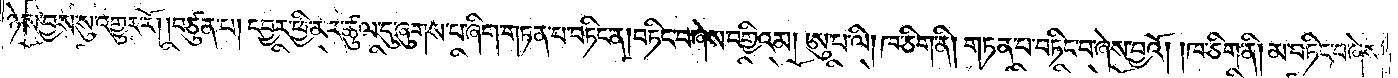ཉེས་བྱས་སུ་འགྱུར་རོ། །བཙུན་པ། དབྱར་ཕྱི་མར་ཚུལ་དུ་ཞུགས་པ་ཞིག་གཏན་པ་བཏིང་ན། བཏིང་བ་ཞེས་བགྱིའམ། ཨུ་པ་ལི། ཁ་ཅིག་ནི། གཏན་པ་བཏིང་བ་ཞེས་བྱའོ། །ཁ་ཅིག་ནི། མ་བཏིང་བ་ཞེས་
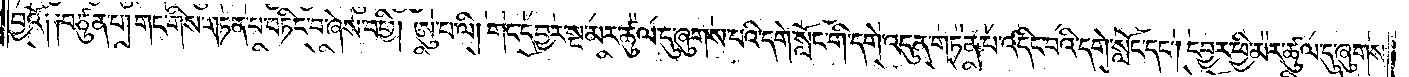བྱའོ༑ ༑བཙུན་པ། གང་གིས་གཏན་པ་བཏིང་བ་ཞེས་བགྱི། ཨུ་པ་ལི། གང་དབྱར་སྔ་མར་ཚུལ་དུ་ཞུགས་པའི་དགེ་སློང་གི་དགེ་འདུན་གཏན་པ་འདིང་བའི་དགེ་སློང་དང༌། དབྱར་ཕྱི་མར་ཚུལ་དུ་ཞུགས་
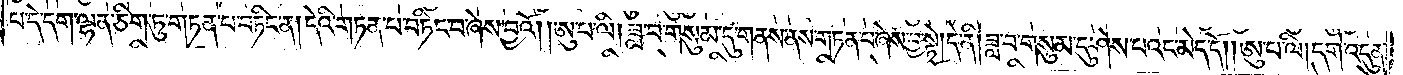པ་དེ་དག་ལྷན་ཅིག་ཏུ་གཏན་པ་བཏིང་ན། དེའི་གཏན་པ་བཏིང་བ་ཞེས་བྱའོ། །ཨུ་པ་ལི། ཟླ་བ་གསུམ་དུ་གནས་ནས་གཏན་པ་ཞེས་བྱ་སྟེ། དེ་ནི། ཟླ་བ་གསུམ་དུ་ཤེས་པའང་མེད་དོ། །ཨུ་པ་ལི། དགེ་འདུན་
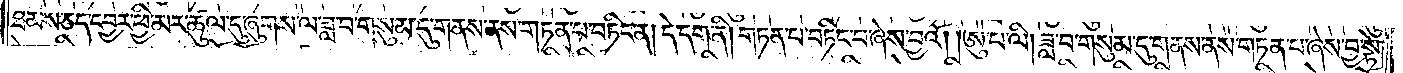ཐམས་ཅད་དབྱར་ཕྱི་མར་ཚུལ་དུ་ཞུགས་ལ་ཟླ་བ་གསུམ་དུ་གནས་ནས་གཏན་པ་བཏིང་ན། དེ་དག་ནི། གཏན་པ་བཏིང་བ་ཞེས་བྱའོ། །ཨུ་པ་ལི། ཟླ་བ་གསུམ་དུ་གནས་ནས་གཏན་པ་ཞེས་བྱ་སྟེ།
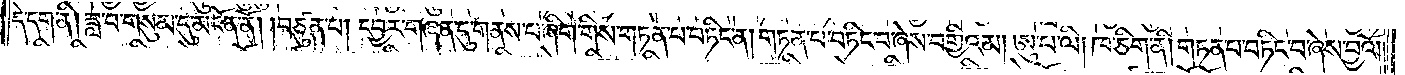དེ་དག་ནི། ཟླ་བ་གསུམ་དུ་མངོན་ནོ། །བཙུན་པ། དབྱར་གཞན་དུ་གནས་པ་ཞིག་གིས་གཏན་པ་བཏིང་ན། གཏན་པ་བཏིང་བ་ཞེས་བགྱིའམ། ཨུ་པ་ལི། ཁ་ཅིག་ནི། གཏན་པ་བཏིང་བ་ཞེས་བྱའོ༎
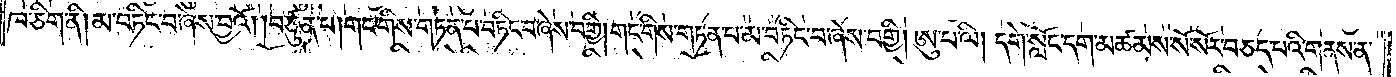ཁ་ཅིག་ནི། མ་བཏིང་བ་ཞེས་བྱའོ། །བཙུན་པ། གང་གིས་གཏན་པ་བཏིང་བ་ཞེས་བགྱི། གང་གིས་གཏན་པ་མ་བཏིང་བ་ཞེས་བགྱི། ཨུ་པ་ལི། དགེ་སློང་དག་མཚམས་སོ་སོར་བཅད་པའི་གནས་ན་
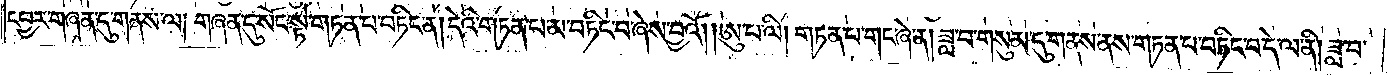དབྱར་གཞན་དུ་གནས་ལ། གཞན་དུ་སོང་སྟེ་གཏན་པ་བཏིང་ན། དེའི་གཏན་པ་མ་བཏིང་བ་ཞེས་བྱའོ། །ཨུ་པ་ལི། གཏན་པ་གང་ཞེ་ན། ཟླ་བ་གསུམ་དུ་གནས་ནས་གཏན་པ་བཏིང་བ་དེ་ལ་ནི། ཟླ་བ་
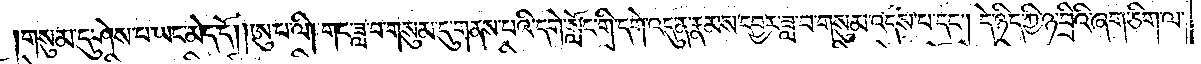གསུམ་དུ་ཤེས་པ་ཡང་མེད་དོ། །ཨུ་པ་ལི། གང་ཟླ་བ་གསུམ་དུ་གནས་པའི་དགེ་སློང་གི་དགེ་འདུན་རྣམས་དབྱར་ཟླ་བ་གསུམ་འདས་པ་དང༌། དེ་ཉིད་ཀྱི་ཉ་བྲིའི་ཞག་ཅིག་ལ་
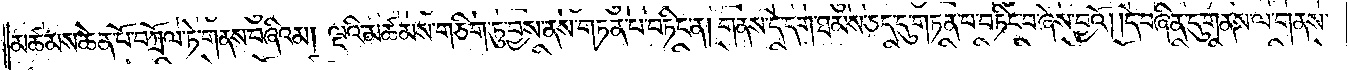མཚམས་ཆེན་པོ་བཀྲོལ་ཏེ་གནས་བཞིའམ། ལྔའི་མཚམས་གཅིག་ཏུ་བྱས་ནས་གཏན་པ་བཏིང་ན། གནས་དེ་དག་ཐམས་ཅད་དུ་གཏན་པ་བཏིང་བ་ཞེས་བྱའོ། །དེ་བཞིན་དུ་གནས་ལ་གནས་
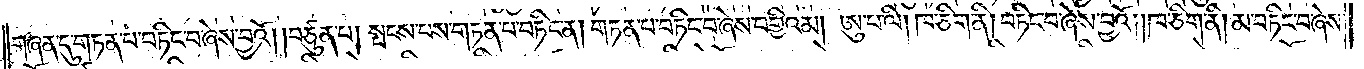གཞན་དུ་གཏན་པ་བཏིང་བ་ཞེས་བྱའོ། །བཙུན་པ། སྤངས་པས་གཏན་པ་བཏིང་ན། གཏན་པ་བཏིང་བ་ཞེས་བགྱིའམ། ཨུ་པ་ལི། ཁ་ཅིག་ནི། བཏིང་བ་ཞེས་བྱའོ། །ཁ་ཅིག་ནི། མ་བཏིང་བ་ཞེས་
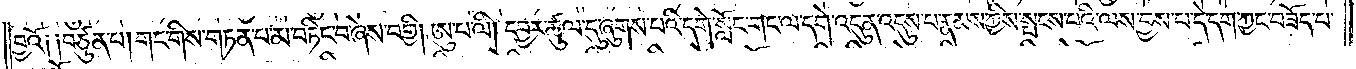བྱའོ༑ ༑བཙུན་པ། གང་གིས་གཏན་པ་མ་བཏིང་བ་ཞེས་བགྱི། ཨུ་པ་ལི། དབྱར་ཚུལ་དུ་ཞུགས་པའི་དགེ་སློང་གང་ལ་དགེ་འདུན་འདུས་པ་རྣམས་ཀྱིས་སྤངས་པའི་ལས་བྱས་པ་དེ་དག་ཀྱང་བཟོད་པ་
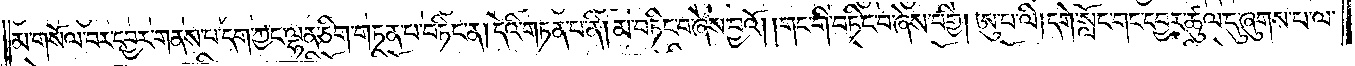མ་གསོལ་བར་དབྱར་གནས་པ་དག་ཀྱང་ལྷན་ཅིག་གཏན་པ་བཏིང་ན། དེའི་གཏན་པ་ནི། མ་བཏིང་བ་ཞེས་བྱའོ། །གང་གི་བཏིང་བ་ཞེས་བགྱི། ཨུ་པ་ལི། དགེ་སློང་གང་དབྱར་ཚུལ་དུ་ཞུགས་པ་ལ་
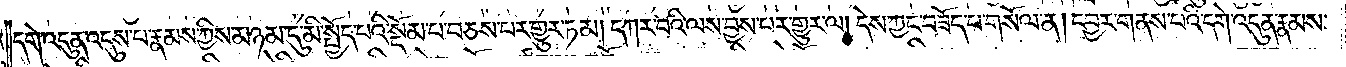དགེ་འདུན་འདུས་པ་རྣམས་ཀྱིས་མཉམ་དུ་མི་སྤྱོད་པའི་སྡོམ་པ་བཅས་པར་གྱུར་ཏམ། དཀར་བའི་ལས་བྱས་པར་གྱུར་ལ། དེས་ཀྱང་བཟོད་པ་གསོལ་ན། དབྱར་གནས་པའི་དགེ་འདུན་རྣམས་
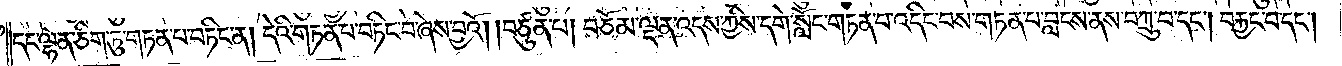དང་ལྷན་ཅིག་ཏུ་གཏན་པ་བཏིང་ན། དེའི་གཏན་པ་བཏིང་བ་ཞེས་བྱའོ། །བཙུན་པ། བཅོམ་ལྡན་འདས་ཀྱིས་དགེ་སློང་གཏན་པ་འདིང་བས་གཏན་པ་བླངས་ནས་བཀྲུ་བ་དང༌། བརྐྱང་བ་དང༌།
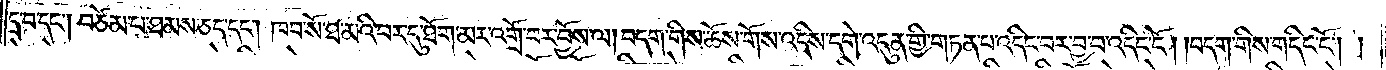དྲ་བ་དང༌། བཙེམ་པ་ཐམས་ཅད་དང༌། ཁབ་སོ་ཐ་མའི་བར་དུ་ཐོག་མར་འགྲོ་བར་བྱོས་ལ། བདག་གིས་ཆོས་གོས་འདིས་དགེ་འདུན་གྱི་གཏན་པ་འདིང་བར་བྱ་བ་འདིང་ངོ༌། །བདག་གིས་གདིང་ངོ༌། །
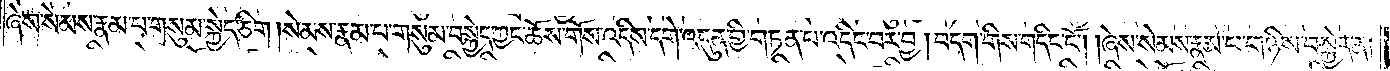ཞེས་སེམས་རྣམ་པ་གསུམ་སྐྱེད་ཅིག །སེམས་རྣམ་པ་གསུམ་བསྐྱེད་ཀྱང་ཆོས་གོས་འདིས་དགེ་འདུན་གྱི་གཏན་པ་འདིང་བར་བྱ། བདག་གིས་གདིང་ངོ༌། །ཞེས་སེམས་རྣམ་པ་གཉིས་བསྐྱེད་ན།
